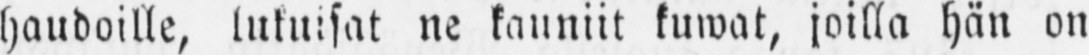haudoille, lukuisat ne kauniit kuwat, joilla hän on
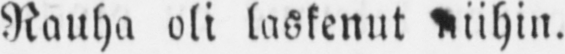Nauha oli laskenut niihin.
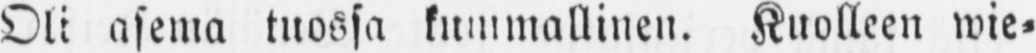Oli asema tuossa kummallinen. Kuolleen wie-
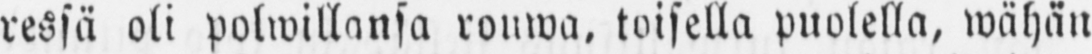ressä oli polwillansa rouwa, toisella puolella, wähän
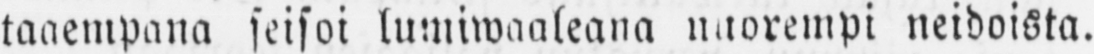taaempana seisoi lumiwaaleana nuorempi neidoista.
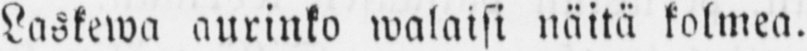Laskewa aurinko walaisi näitä kolmea.
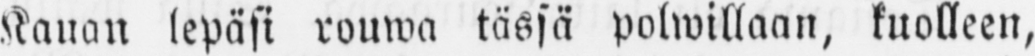Kauan lepäsi rouwa tässä polwillaan, kuolleen,
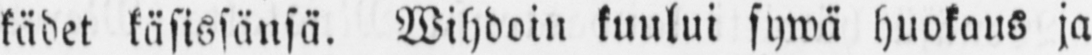kädet käsissänsä. Wihdoin kuului sywä huokaus ja
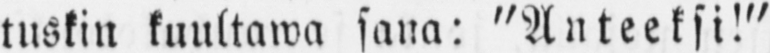tuskin kuultawa sana: "Anteeksi!"
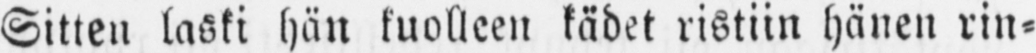Sitten laski hän kuolleen kädet ristiin hänen rin-
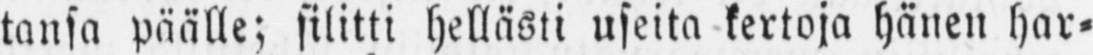tansa päälle; silitti hellästi useita kertoja hänen har-
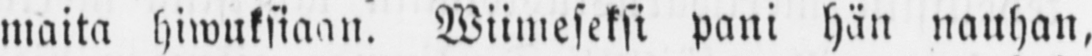maita hiwuksiaan. Wiimeseksi pani hän nauhan,
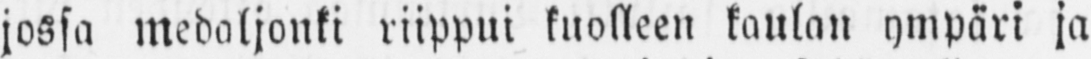jossa medaljonki riippui kuolleen kaulan ympäri ja
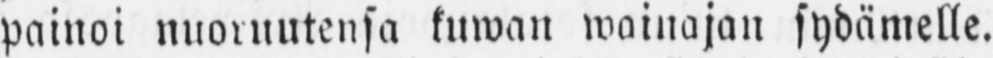painoi nuoruutensa kuwan wainajan sydämelle.
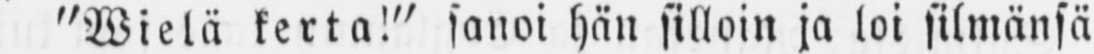ˮWielä kerta!ˮ sanoi hän silloin ja loi silmänsä
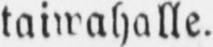taiwahalle.
